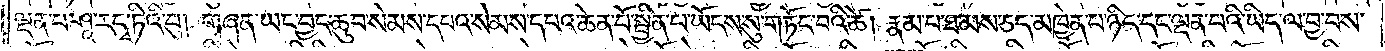ལྡན་པ་ཤཱ་རདྭ་ཏིའི་བུ། གཞན་ཡང་བྱང་ཆུབ་སེམས་དཔའ་སེམས་དཔའ་ཆེན་པོ་སྦྱིན་པ་ཡོངས་སུ་གཏོང་བའི་ཚེ། རྣམ་པ་ཐམས་ཅད་མཁྱེན་པ་ཉིད་དང་ལྡན་པའི་ཡིད་ལ་བྱ་བས་
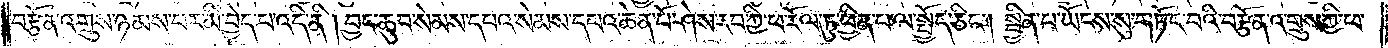བརྩོན་འགྲུས་ཉམས་པར་མི་བྱེད་པ་འདི་ནི། བྱང་ཆུབ་སེམས་དཔའ་སེམས་དཔའ་ཆེན་པོ་ཤེས་རབ་ཀྱི་ཕ་རོལ་ཏུ་ཕྱིན་པ་ལ་སྤྱོད་ཅིང༌། སྦྱིན་པ་ཡོངས་སུ་གཏོང་བའི་བརྩོན་འགྲུས་ཀྱི་ཕ་
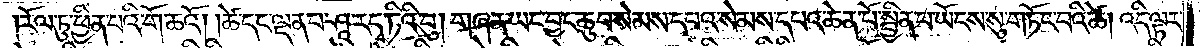རོལ་ཏུ་ཕྱིན་པའི་གོ་ཆའོ། །ཚེ་དང་ལྡན་པ་ཤཱ་རདྭ་ཏིའི་བུ། གཞན་ཡང་བྱང་ཆུབ་སེམས་དཔའ་སེམས་དཔའ་ཆེན་པོ་སྦྱིན་པ་ཡོངས་སུ་གཏོང་བའི་ཚེ། འདི་ལྟར་
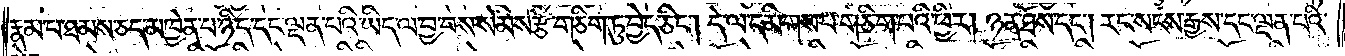རྣམ་པ་ཐམས་ཅད་མཁྱེན་པ་ཉིད་དང་ལྡན་པའི་ཡིད་ལ་བྱ་བས་སེམས་རྩེ་གཅིག་ཏུ་བྱེད་ཅིང༌། དེ་ལ་དམིགས་པ་གཅིག་པའི་ཕྱིར། ཉན་ཐོས་དང༌། རང་སངས་རྒྱས་དང་ལྡན་པའི་
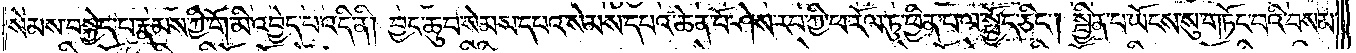སེམས་བསྐྱེད་པ་རྣམས་ཀྱི་གོ་མི་འབྱེད་པ་འདི་ནི། བྱང་ཆུབ་སེམས་དཔའ་སེམས་དཔའ་ཆེན་པོ་ཤེས་རབ་ཀྱི་ཕ་རོལ་ཏུ་ཕྱིན་པ་ལ་སྤྱོད་ཅིང༌། སྦྱིན་པ་ཡོངས་སུ་གཏོང་བའི་བསམ་
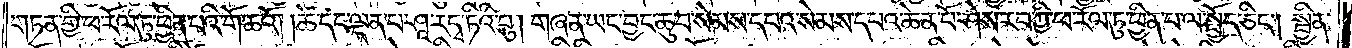གཏན་གྱི་ཕ་རོལ་ཏུ་ཕྱིན་པའི་གོ་ཆའོ། །ཚེ་དང་ལྡན་པ་ཤཱ་རདྭ་ཏིའི་བུ། གཞན་ཡང་བྱང་ཆུབ་སེམས་དཔའ་སེམས་དཔའ་ཆེན་པོ་ཤེས་རབ་ཀྱི་ཕ་རོལ་ཏུ་ཕྱིན་པ་ལ་སྤྱོད་ཅིང༌། སྦྱིན་
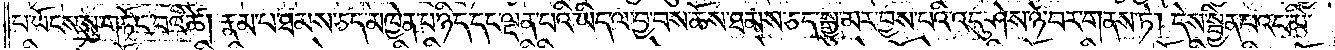པ་ཡོངས་སུ་གཏོང་བའི་ཚེ། རྣམ་པ་ཐམས་ཅད་མཁྱེན་པ་ཉིད་དང་ལྡན་པའི་ཡིད་ལ་བྱ་བས་ཆོས་ཐམས་ཅད་སྒྱུ་མར་བྱས་པའི་འདུ་ཤེས་ཉེ་བར་གནས་ཏེ། དེས་སྦྱིན་པའང་མི་
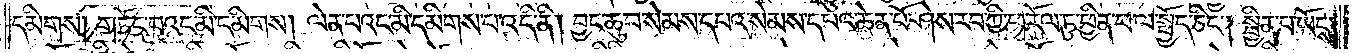དམིགས། གཏོང་བའང་མི་དམིགས། ལེན་པའང་མི་དམིགས་པ་འདི་ནི། བྱང་ཆུབ་སེམས་དཔའ་སེམས་དཔའ་ཆེན་པོ་ཤེས་རབ་ཀྱི་ཕ་རོལ་ཏུ་ཕྱིན་པ་ལ་སྤྱོད་ཅིང༌། སྦྱིན་པ་ཡོངས་
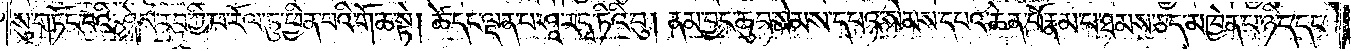སུ་གཏོང་བའི་ཤེས་རབ་ཀྱི་ཕ་རོལ་ཏུ་ཕྱིན་པའི་གོ་ཆ་སྟེ། ཚེ་དང་ལྡན་པ་ཤཱ་རདྭ་ཏིའི་བུ། ནམ་བྱང་ཆུབ་སེམས་དཔའ་སེམས་དཔའ་ཆེན་པོ་རྣམ་པ་ཐམས་ཅད་མཁྱེན་པ་ཉིད་དང་
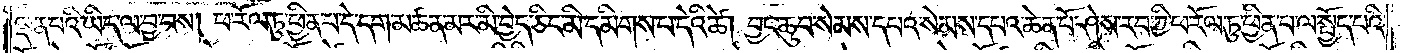ལྡན་པའི་ཡིད་ལ་བྱ་བས། ཕ་རོལ་ཏུ་ཕྱིན་པ་དེ་དག་མཚན་མར་མི་བྱེད་ཅིང་མི་དམིགས་པ་དེའི་ཚེ། བྱང་ཆུབ་སེམས་དཔའ་སེམས་དཔའ་ཆེན་པོ་ཤེས་རབ་ཀྱི་ཕ་རོལ་ཏུ་ཕྱིན་པ་ལ་སྤྱོད་པའི་
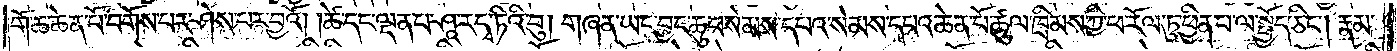གོ་ཆ་ཆེན་པོ་བགོས་པར་ཤེས་པར་བྱའོ། །ཚེ་དང་ལྡན་པ་ཤཱ་རདྭ་ཏིའི་བུ། གཞན་ཡང་བྱང་ཆུབ་སེམས་དཔའ་སེམས་དཔའ་ཆེན་པོ་ཚུལ་ཁྲིམས་ཀྱི་ཕ་རོལ་ཏུ་ཕྱིན་པ་ལ་སྤྱོད་ཅིང༌། རྣམ་
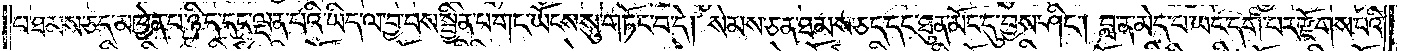པ་ཐམས་ཅད་མཁྱེན་པ་ཉིད་དང་ལྡན་པའི་ཡིད་ལ་བྱ་བས་སྦྱིན་པ་གང་ཡོངས་སུ་གཏོང་བ་དེ། སེམས་ཅན་ཐམས་ཅད་དང་ཐུན་མོང་དུ་བྱས་ཤིང༌། བླ་ན་མེད་པ་ཡང་དག་པར་རྫོགས་པའི་
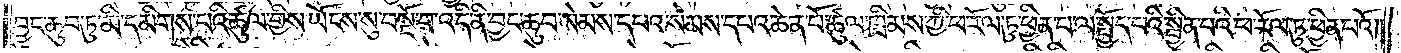བྱང་ཆུབ་ཏུ་མི་དམིགས་པའི་ཚུལ་གྱིས་ཡོངས་སུ་བསྔོ་བ་འདི་ནི་བྱང་ཆུབ་སེམས་དཔའ་སེམས་དཔའ་ཆེན་པོ་ཚུལ་ཁྲིམས་ཀྱི་ཕ་རོལ་ཏུ་ཕྱིན་པ་ལ་སྤྱོད་པའི་སྦྱིན་པའི་ཕ་རོལ་ཏུ་ཕྱིན་པའོ། །
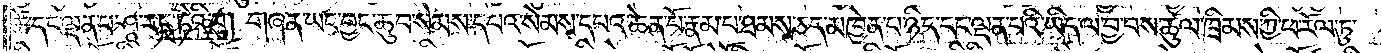ཚེ་དང་ལྡན་པ་ཤཱ་རདྭ་ཏིའི་བུ། གཞན་ཡང་བྱང་ཆུབ་སེམས་དཔའ་སེམས་དཔའ་ཆེན་པོ་རྣམ་པ་ཐམས་ཅད་མཁྱེན་པ་ཉིད་དང་ལྡན་པའི་ཡིད་ལ་བྱ་བས་ཚུལ་ཁྲིམས་ཀྱི་ཕ་རོལ་ཏུ་
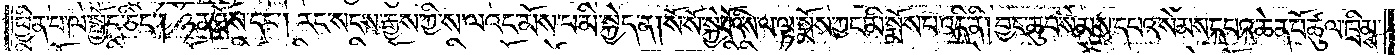ཕྱིན་པ་ལ་སྤྱོད་ཅིང༌། ཉན་ཐོས་དང༌། རང་སངས་རྒྱས་ཀྱི་ས་ལའང་མོས་པ་མི་སྐྱེད་ན། སོ་སོ་སྐྱེ་བོའི་ས་ལ་ལྟ་སྨོས་ཀྱང་མི་སྨོས་པ་འདི་ནི། བྱང་ཆུབ་སེམས་དཔའ་སེམས་དཔའ་ཆེན་པོ་ཚུལ་ཁྲིམས་
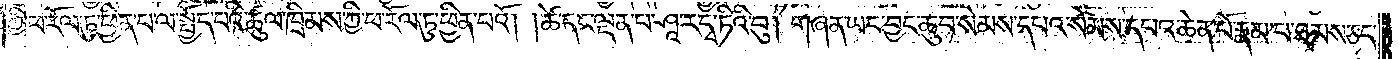ཀྱི་ཕ་རོལ་ཏུ་ཕྱིན་པ་ལ་སྤྱོད་པའི་ཚུལ་ཁྲིམས་ཀྱི་ཕ་རོལ་ཏུ་ཕྱིན་པའོ། །ཚེ་དང་ལྡན་པ་ཤཱ་རདྭ་ཏིའི་བུ། གཞན་ཡང་བྱང་ཆུབ་སེམས་དཔའ་སེམས་དཔའ་ཆེན་པོ་རྣམ་པ་ཐམས་ཅད་
